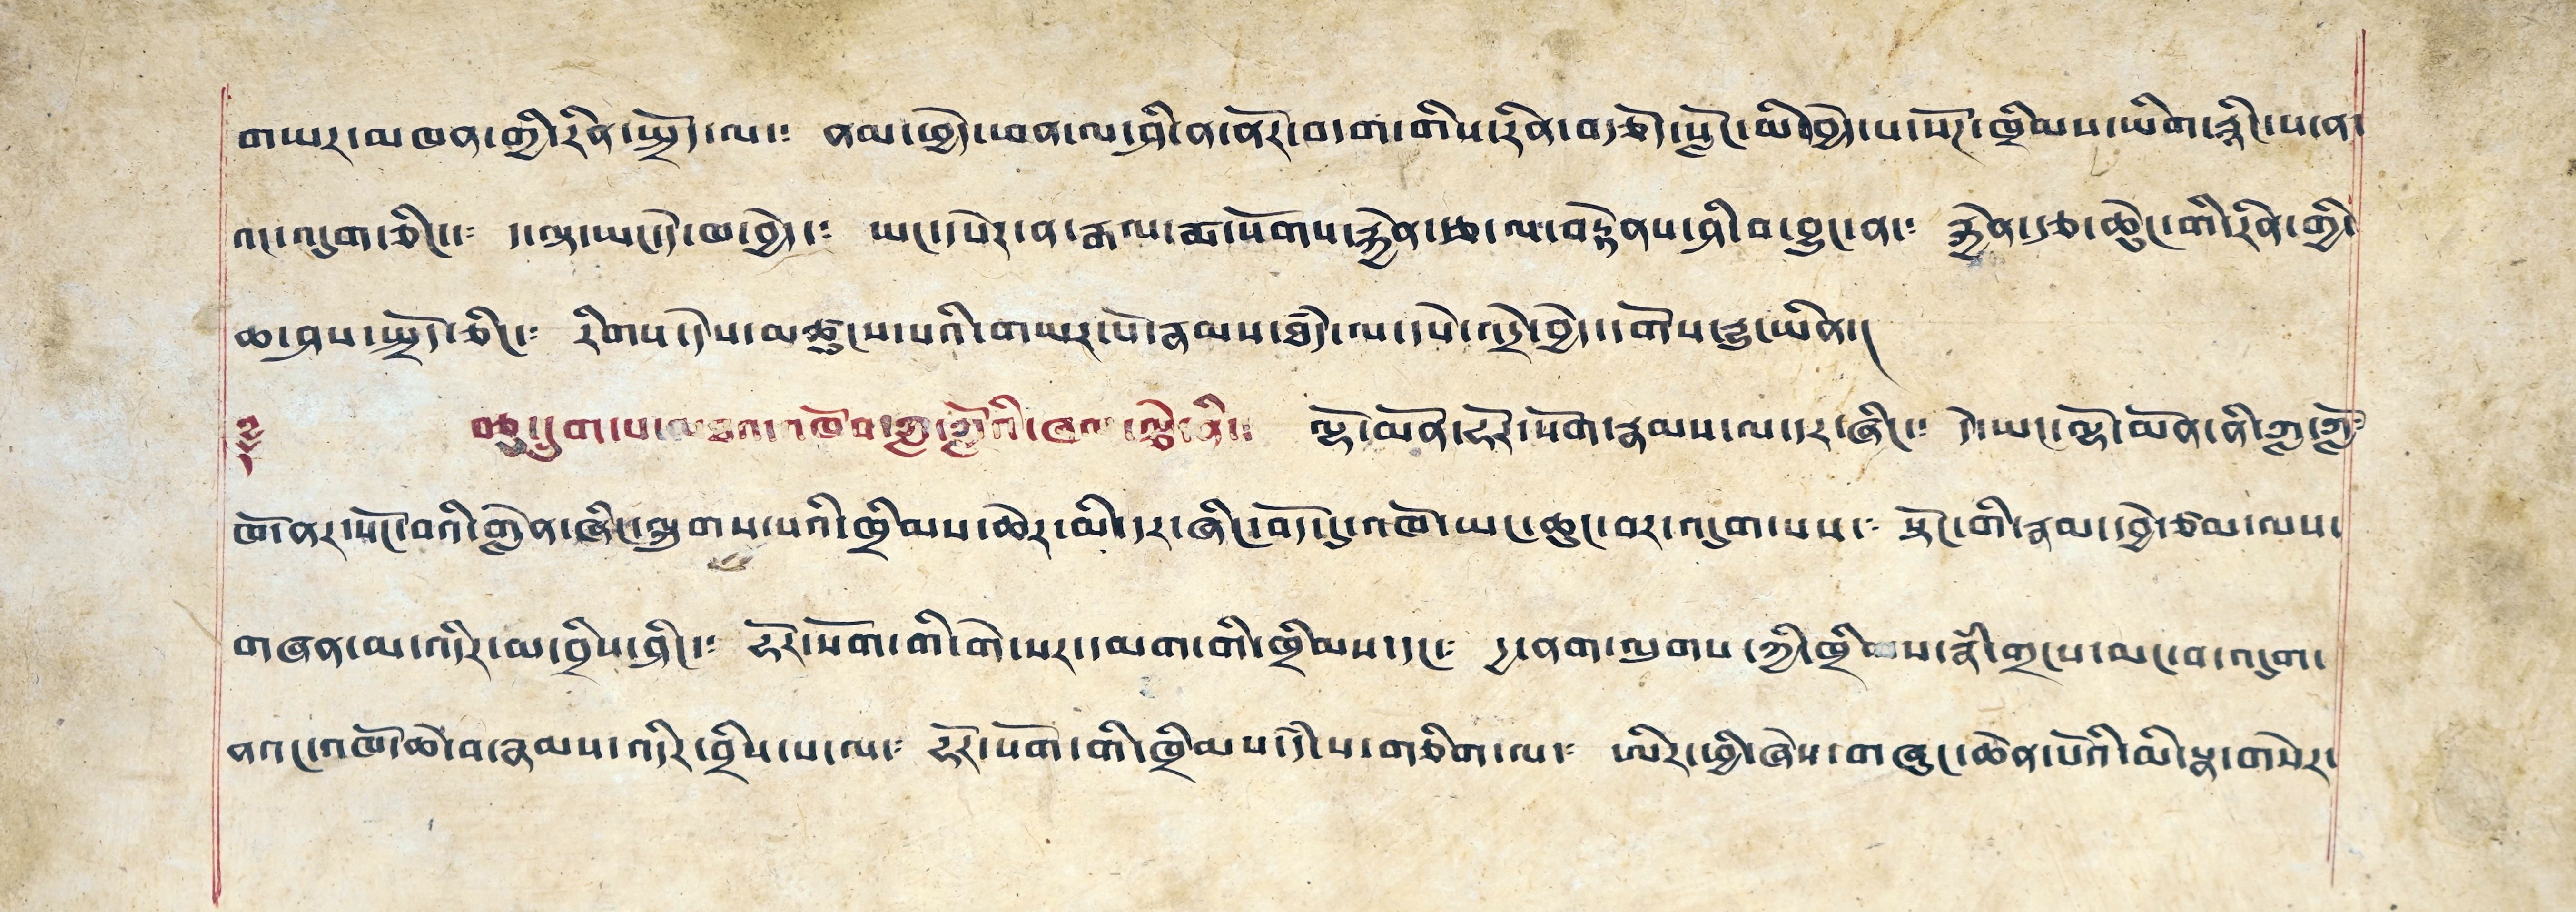གཡར་མཁན་གྱི་རིན་སྤྲོད་ལ་༴ ནམ་ཕྱེད་ཕན་ལ་ཤི་ན་ནོར་བདག་གིས་རིན་བརྩོད་སློང་མི་བྱེད་པ་སོཊ་ཁྲིམས་ཡིག་རྙིང་པ་ན་
འང་འདུག་ཅིང་༴ ད་ལྟ་ཡང་དེ་ཁ་བྱེད་༴ ཡང་དཔེར་ན་རྒལ་རྨ་སོགས་རྐྱེན་རྩ་ལ་བརྟེནས་ཤི་བ་བྱུང་ན་༴ རྐྱེན་རྩ་ཆེུང་གི་རིན་གྱི་
ཆ་ཤས་སྤྲོད་ཅིང་༴ རིགས་དེས་མཚུངས་པའི་གཡར་པོ་རྣམས་ཐཾད་ལ་དཔེ་འདྲེ་བྱེད་དགོས་རྒྱུ་ཡིན།།
༈ བཅུ་དྲུག་པ་མཐའ་འཁོབ་ཀླ་ཀློའི་ཞལ་ལྕེ་ནི་༴ ལྷོ་མོན་ཧོར་སོག་རྣམས་ལ་དར་ཞིང་༴ དེ་ཡང་ལྷོ་མོན་ནི་ཀླ་ཀློ༴
ཁོ་ནར་སོང་བའི་གླེན་ཞིང་ལྐུགས་པའི་ཁྲིམས་ཆེར་མི་དར་ཞིང་བོད་དུ་འཁོ་ཡང་ཆུང་བར་འདུག་པས་༴ སྟོང་གི་རྣམ་དབྱེ་ཙམ་ལས་
གཞན་མ་འདིར་མ་བྲིས་ཤིང་༴ ཧོར་སོག་གི་གེ་སར་དམག་གི་ཁྲིམས་དང་༴ དྱ་ནག་ལུགས་ཀྱི་ཁྲིམས་རྣཾ་གྲངས་མང་བ་འདུག་
ནའང་འཁོ་ཆེ་བ་རྣམས་འདིར་བྲིས་པ་ལ་༴ ཧོར་སོག་གི་ཁྲིམས་དཾ་པ་གཅིག་ལ་༴ ཨིར་ཕྱི་ཞེས་གཞང་ཆེན་པོའི་མི་སྣ་གསེར་
